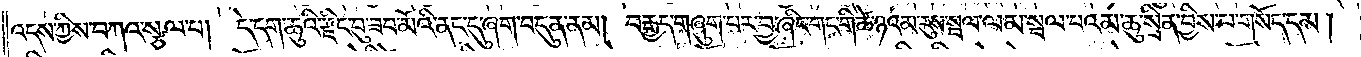འདས་ཀྱིས་བཀའ་སྩལ་པ། དེ་དག་ཆུའི་རྫིང་བུ་ཟབ་མོའི་ནང་དུ་ཞག་བདུན་ནམ། བརྒྱད་གཞུག་པར་བྱ་ཞིང་གང་གི་ཚེ་ཉའམ་རུས་སྦལ་ལམ་སྦལ་པའམ་ཆུ་སྲིན་བྱིས་པ་གསོད་དམ།
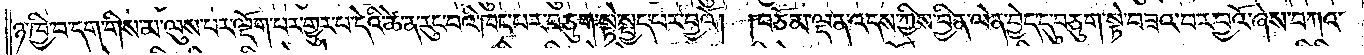ཉ་ཁྱི་བདག་གིས་མ་ལུས་པར་ལྡོག་པར་གྱུར་པ་དེའི་ཚེ་ན་རུང་བའི་ཁང་པར་བཅུག་སྟེ་སྤྱད་པར་བྱའོ། །བཅོམ་ལྡན་འདས་ཀྱིས་བྱིན་ལེན་བྱེད་དུ་བཅུག་སྟེ་བཟའ་བར་བྱའོ་ཞེས་བཀའ་
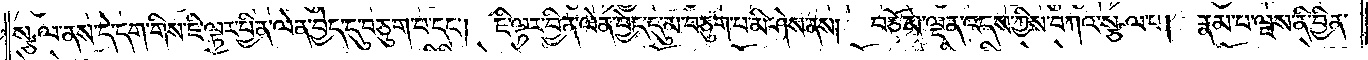སྩལ་ནས་དེ་དག་གིས་ཇི་ལྟར་བྱིན་ལེན་བྱེད་དུ་བཅུག་པ་དང༌། ཇི་ལྟར་བྱིན་ལེན་བྱེད་དུ་མ་བཅུག་པ་མི་ཤེས་ནས། བཅོམ་ལྡན་འདས་ཀྱིས་བཀའ་སྩལ་པ། རྣམ་པ་ལྔས་ནི་བྱིན་
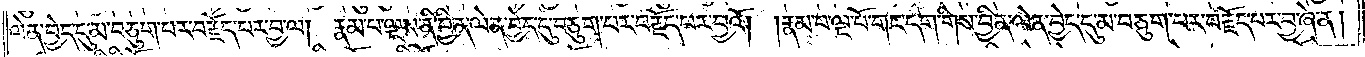ལེན་བྱེད་དུ་མ་བཅུག་པར་བརྗོད་པར་བྱ་ལ། རྣམ་པ་ལྔས་ནི་བྱིན་ལེན་བྱེད་དུ་བཅུག་པར་བརྗོད་པར་བྱའོ། །རྣམ་པ་ལྔ་པོ་གང་དག་གིས་བྱིན་ལེན་བྱེད་དུ་མ་བཅུག་པར་བརྗོད་པར་བྱ་ཞེ་ན།
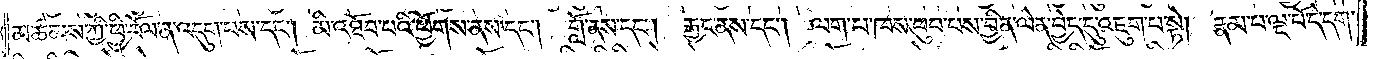མཚམས་ཀྱི་ཕྱི་རོལ་ན་འདུག་པས་དང༌། མི་འཐོབ་པའི་ཕྱོགས་ནས་དང༌། གློ་ནས་དང༌། རྒྱང་ནས་དང༌། ལག་པ་ཁས་ཕུབ་པས་བྱིན་ལེན་བྱེད་དུ་འཇུག་པ་སྟེ། རྣམ་པ་ལྔ་པོ་དེ་དག་
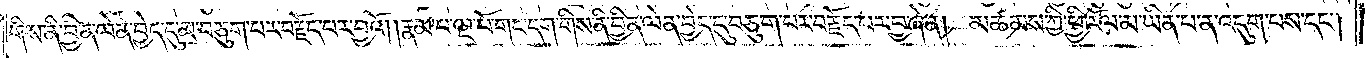གིས་ནི་བྱིན་ལེན་བྱེད་དུ་མ་བཅུག་པར་བརྗོད་པར་བྱའོ། །རྣམ་པ་ལྔ་པོ་གང་དག་གིས་ནི་བྱིན་ལེན་བྱེད་དུ་བཅུག་པར་བརྗོད་པར་བྱ་ཞེ་ན། མཚམས་ཀྱི་ཕྱི་རོལ་མ་ཡིན་པ་ན་འདུག་པས་དང༌།
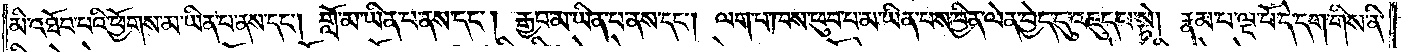མི་འཐོབ་པའི་ཕྱོགས་མ་ཡིན་པ་ནས་དང༌། གློ་མ་ཡིན་པ་ནས་དང༌། རྒྱབ་མ་ཡིན་པ་ནས་དང༌། ལག་པ་ཁས་ཕུབ་པ་མ་ཡིན་པས་བྱིན་ལེན་བྱེད་དུ་འཇུད་པ་སྟེ། རྣམ་པ་ལྔ་པོ་དེ་དག་གིས་ནི་
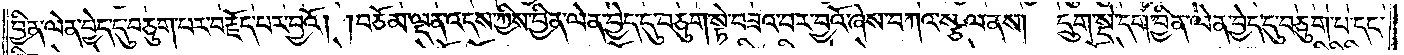བྱིན་ལེན་བྱེད་དུ་བཅུག་པར་བརྗོད་པར་བྱའོ། །བཅོམ་ལྡན་འདས་ཀྱིས་བྱིན་ལེན་བྱེད་དུ་བཅུག་སྟེ་བཟའ་བར་བྱའོ་ཞེས་བཀའ་སྩལ་ནས། དྲུག་སྡེ་དག་བྱིན་ལེན་བྱེད་དུ་བཅུག་པ་དང་
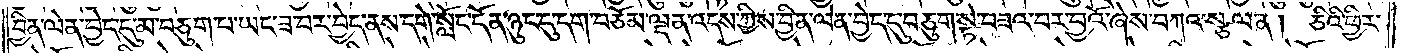བྱིན་ལེན་བྱེད་དུ་མ་བཅུག་པ་ཡང་ཟ་བར་བྱེད་ནས་དགེ་སློང་དོན་ཉུང་དུ་དག་བཅོམ་ལྡན་འདས་ཀྱིས་བྱིན་ལེན་བྱེད་དུ་བཅུག་སྟེ་བཟའ་བར་བྱའོ་ཞེས་བཀའ་སྩལ་ན། ཅིའི་ཕྱིར་
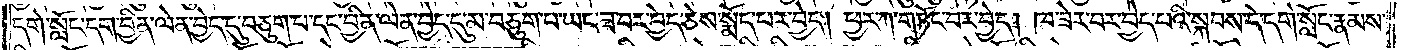དགེ་སློང་དག་བྱིན་ལེན་བྱེད་དུ་བཅུག་པ་དང་བྱིན་ལེན་བྱེད་དུ་མ་བཅུག་པ་ཡང་ཟ་བར་བྱེད་ཅེས་སྨོད་པར་བྱེད། ཕྱར་ཀ་གཏོང་བར་བྱེད། ཁ་ཟེར་བར་བྱེད་པའི་སྐབས་དེ་དགེ་སློང་རྣམས་
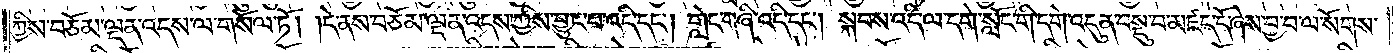ཀྱིས་བཅོམ་ལྡན་འདས་ལ་གསོལ་ཏོ། །དེ་ནས་བཅོམ་ལྡན་འདས་ཀྱིས་བྱུང་བ་འདི་དང༌། གླེང་གཞི་འདི་དང༌། སྐབས་འདི་ལ་དགེ་སློང་གི་དགེ་འདུན་བསྡུ་བ་མཛད་དོ་ཞེས་བྱ་བ་ལ་སོགས་
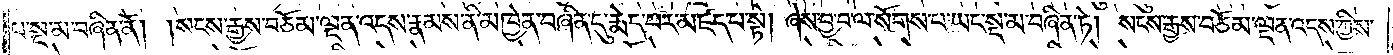པ་སྔ་མ་བཞིན་ནོ། །སངས་རྒྱས་བཅོམ་ལྡན་འདས་རྣམས་ནི་མཁྱེན་བཞིན་དུ་རྨེད་པར་མཛད་པ་སྟེ། ཞེས་བྱ་བ་ལ་སོགས་པ་ཡང་སྔ་མ་བཞིན་ཏེ། སངས་རྒྱས་བཅོམ་ལྡན་འདས་ཀྱིས་
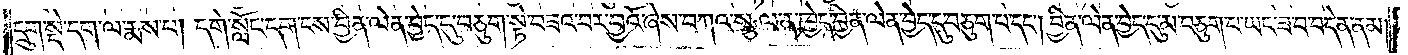དྲུག་སྡེ་དག་ལ་རྨས་པ། དགེ་སློང་དག་ངས་བྱིན་ལེན་བྱེད་དུ་བཅུག་སྟེ་བཟའ་བར་བྱའོ་ཞེས་བཀའ་སྩལ་ན་ཁྱེད་བྱིན་ལེན་བྱེད་དུ་བཅུག་པ་དང༌། བྱིན་ལེན་བྱེད་དུ་མ་བཅུག་པ་ཡང་ཟ་བ་བདེན་ནམ།
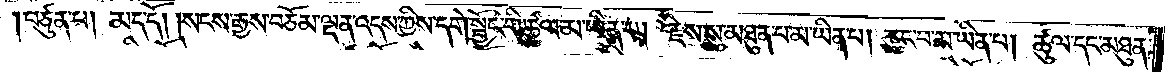བཙུན་པ། མད་དོ། །སངས་རྒྱས་བཅོམ་ལྡན་འདས་ཀྱིས་དགེ་སྦྱོང་གི་ཚུལ་མ་ཡིན་པ། རྗེས་སུ་མཐུན་པ་མ་ཡིན་པ། རུང་བ་མ་ཡིན་པ། ཚུལ་དང་མཐུན་
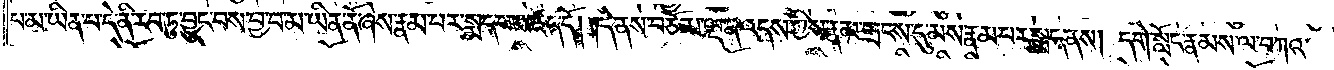པ་མ་ཡིན་པ་དེ་ནི་རབ་ཏུ་བྱུང་བས་བྱ་བ་མ་ཡིན་ནོ་ཞེས་རྣམ་པར་སྨད་པ་མཛད་དོ། །དེ་ནས་བཅོམ་ལྡན་འདས་ཀྱིས་རྣམ་གྲངས་དུ་མས་རྣམ་པར་སྨད་ནས། དགེ་སློང་རྣམས་ལ་བཀའ་
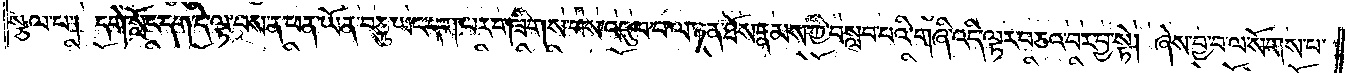སྩལ་པ། དགེ་སློང་དག་དེ་ལྟ་བས་ན་ཕན་ཡོན་བཅུ་ཡང་དག་པར་གཟིགས་པས་འདུལ་བ་ལ་ཉན་ཐོས་རྣམས་ཀྱི་བསླབ་པའི་གཞི་འདི་ལྟར་བཅའ་བར་བྱ་སྟེ། ཞེས་བྱ་བ་ལ་སོགས་པ་
